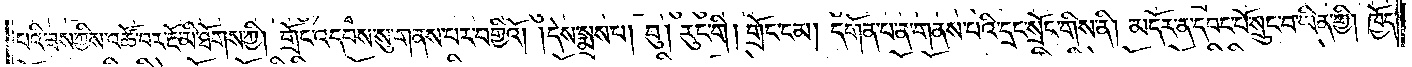པའི་ཟས་ཀྱིས་འཚོ་བར་རྔོ་མི་ཐོགས་ཀྱི། གྲོང་འདབས་སུ་གནས་པར་བགྱིའོ། །དེས་སྨྲས་པ། བུ། རུང་གི། གྲོང་ངམ། དགོན་པ་ན་གནས་པའི་དྲང་སྲོང་གིས་ནི། མདོར་ན་དབང་པོ་སྲུང་བ་ཡིན་གྱི། ཁྱོད་
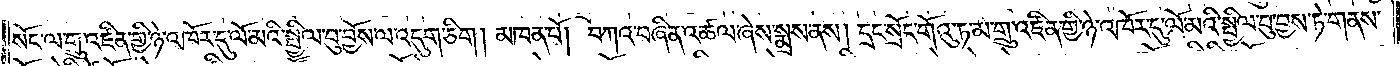སོང་ལ་གྲུ་འཛིན་གྱི་ཉེ་འཁོར་དུ་ལོ་མའི་སྤྱིལ་བུ་བྱོས་ལ་འདུག་ཅིག །མཁན་པོ། བཀའ་བཞིན་འཚལ་ཞེས་སྨྲས་ནས། དྲང་སྲོང་གོའུ་ཏ་མ་གྲུ་འཛིན་གྱི་ཉེ་འཁོར་དུ་ལོ་མའི་སྤྱིལ་བུ་བྱས་ཏེ་གནས་
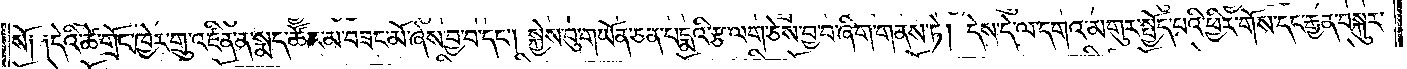སོ༑ ༑དེའི་ཚེ་གྲོང་ཁྱེར་གྲུ་འཛིན་ན་སྨད་ཚོང་མ་བཟང་མོ་ཞེས་བྱ་བ་དང༌། སྐྱེས་བུ་གཡོན་ཅན་པདྨའི་རྩ་ལག་ཅེས་བྱ་བ་ཞིག་གནས་ཏེ། དེས་དེ་ལ་དགའ་མགུར་སྤྱོད་པའི་ཕྱིར་གོས་དང་རྒྱན་བསྐུར་
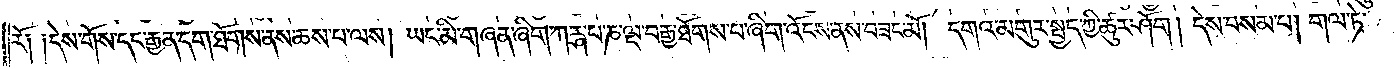རོ༑ ༑དེས་གོས་དང་རྒྱན་དག་ཐོགས་ནས་ཆས་པ་ལས། ཡང་མི་གཞན་ཞིག་ཀཪྴ་པ་ཎ་ལྔ་བརྒྱ་ཐོགས་པ་ཞིག་འོངས་ནས་བཟང་མོ། དགའ་མགུར་སྤྱད་ཀྱི་ཚུར་ཤོག །དེས་བསམ་པ། གལ་ཏེ་
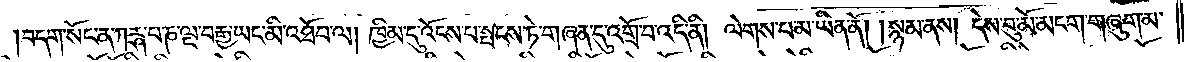བདག་སོང་ན་ཀཪྴ་པ་ཎ་ལྔ་བརྒྱ་ཡང་མི་འཐོབ་ལ། ཁྱིམ་དུ་འོངས་པ་སྤངས་ཏེ་གཞན་དུ་འགྲོ་བ་འདི་ནི། ལེགས་པ་མ་ཡིན་ནོ། །སྙམ་ནས། དེས་བུ་མོ་མངག་གཞུག་མ་
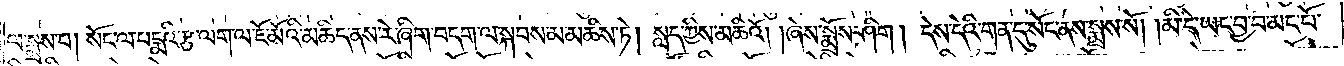ལ་སྨྲས་པ། སོང་ལ་པདྨའི་རྩ་ལག་ལ་ཇོ་མོའི་མཆིད་ནས་རེ་ཞིག་བདག་ལ་སྐབས་མ་མཆིས་ཏེ། སླད་ཀྱིས་མཆིའོ། །ཞེས་སྨྲོས་ཤིག །དེས་དེའི་གན་དུ་སོང་ནས་སྨྲས་སོ། །མི་དེ་ཡང་བྱ་བ་མང་པོ་
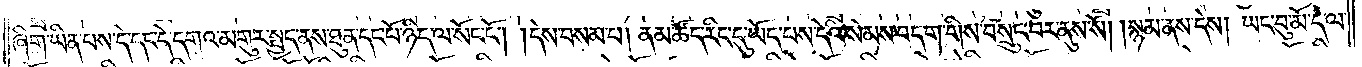ཞིག་ཡིན་པས་དེ་དང་དེ་དགའ་མགུར་སྤྱད་ནས་ཐུན་དང་པོ་ཉིད་ལ་སོང་ངོ༌། །དེས་བསམ་པ། ནམ་ཚོད་རིང་དུ་ཡོད་པས་དེའི་སེམས་བདག་གིས་བསྲུང་བར་ནུས་སོ། །སྙམ་ནས་དེས། ཡང་བུ་མོ་དེ་ལ་
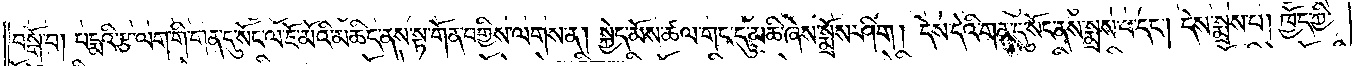བསྒོ་བ། པདྨའི་རྩ་ལག་གི་གན་དུ་སོང་ལ་ཇོ་མོའི་མཆིད་ནས་སྟ་གོན་བགྱིས་ལགས་ན། སྐྱེད་མོས་ཚལ་གང་དུ་མཆི་ཞེས་སྨྲོས་ཤིག །དེས་དེའི་གན་དུ་སོང་ནས་སྨྲས་པ་དང༌། དེས་སྨྲས་པ། ཁྱོད་ཀྱི་
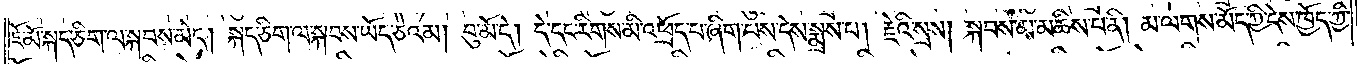ཇོ་མོ་སྐད་ཅིག་ལ་སྐབས་མེད། སྐད་ཅིག་ལ་སྐབས་ཡོད་ཅེའམ། བུ་མོ་དེ། དེ་དང་རིགས་མི་འཕྲོད་པ་ཞིག་པས་དེས་སྨྲས་པ། རྗེའི་སྲས། སྐབས་མ་མཆིས་པ་ནི། མ་ལགས་མོད་ཀྱི་དེས་ཁྱོད་ཀྱི་
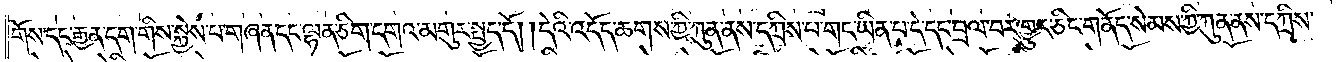གོས་དང་རྒྱན་དག་གིས་སྐྱེས་པ་གཞན་དང་ལྷན་ཅིག་དགའ་མགུར་སྤྱད་དོ། །དེའི་འདོད་ཆགས་ཀྱི་ཀུན་ནས་དཀྲིས་པ་གང་ཡིན་པ་དེ་དང་བྲལ་བར་གྱུར་ཅིང་གནོད་སེམས་ཀྱི་ཀུན་ནས་དཀྲིས་
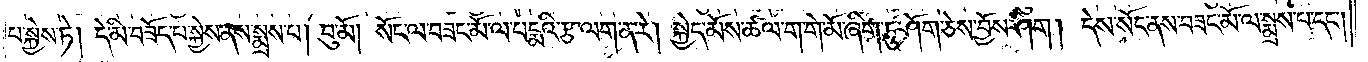པ་སྐྱེས་ཏེ། དེ་མི་བཟོད་པ་སྐྱེས་ནས་སྨྲས་པ། བུ་མོ། སོང་ལ་བཟང་མོ་ལ་པདྨའི་རྩ་ལག་ན་རེ། སྐྱེད་མོས་ཚལ་ག་གེ་མོ་ཞིག་ཏུ་ཤོག་ཅེས་བྱོས་ཤིག། དེས་སོང་ནས་བཟང་མོ་ལ་སྨྲས་པ་དང༌།
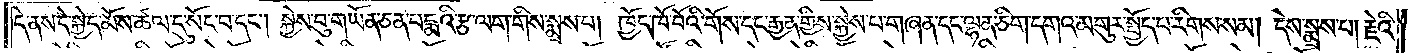དེ་ནས་དེ་སྐྱེད་མོས་ཚལ་དུ་སོང་བ་དང༌། སྐྱེས་བུ་གཡོན་ཅན་པདྨའི་རྩ་ལག་གིས་སྨྲས་པ། ཁྱོད་ཁོ་བོའི་གོས་དང་རྒྱན་གྱིས་སྐྱེས་པ་གཞན་དང་ལྷན་ཅིག་དགའ་མགུར་སྤྱོད་པ་རིགས་སམ། དེས་སྨྲས་པ། རྗེའི་
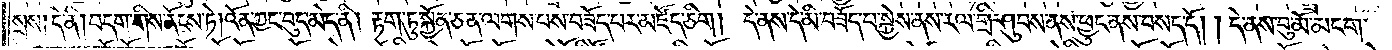སྲས། དེ་ནི། བདག་གིས་ནོངས་ཏེ། འོན་ཀྱང་བུད་མེད་ནི། རྟག་ཏུ་སྐྱོན་ཅན་ལགས་པས་བཟོད་པར་མཛོད་ཅིག། དེ་ནས་དེ་མི་བཟོད་པ་སྐྱེས་ནས་རལ་གྲི་ཤུབས་ནས་ཕྱུང་ནས་བསད་དོ། །དེ་ནས་བུ་མོ་མངག་
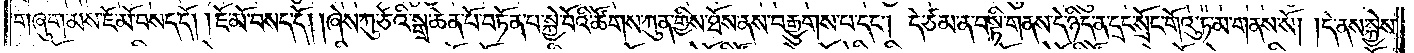གཞུག་མས་ཇོ་མོ་བསད་དོ། །ཇོ་མོ་བསད་དོ། །ཞེས་ཀུ་ཅོའི་སྒྲ་ཆེན་པོ་བཏོན་པ་སྐྱེ་བོའི་ཚོགས་ཀུན་གྱིས་ཐོས་ནས་བརྒྱུགས་པ་དང༌། དེ་ཙམ་ན་བསྟི་གནས་དེ་ཉིད་ན་དྲང་སྲོང་གོའུ་ཏ་མ་གནས་སོ། །དེ་ནས་སྐྱེས་
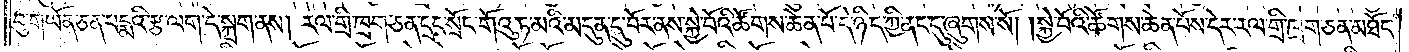བུ་གཡོན་ཅན་པདྨའི་རྩ་ལག་དེ་སྐྲག་ནས། རལ་གྲི་ཁྲག་ཅན་དྲང་སྲོང་གོའུ་ཏ་མའི་མདུན་དུ་བོར་ནས་སྐྱེ་བོའི་ཚོགས་ཆེན་པོ་དེ་ཉིད་ཀྱི་ནང་དུ་ཞུགས་སོ། །སྐྱེ་བོའི་ཚོགས་ཆེན་པོས་དེར་རལ་གྲི་ཁྲག་ཅན་མཐོང་
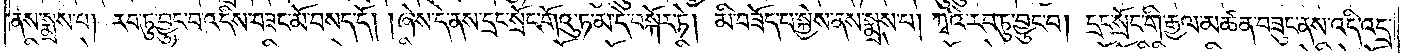ནས་སྨྲས་པ། རབ་ཏུ་བྱུང་བ་འདིས་བཟང་མོ་བསད་དོ། །ཞེས་དེ་ནས་དྲང་སྲོང་གོའུ་ཏ་མ་དེ་བསྐོར་ཏེ། མི་བཟོད་པ་སྐྱེས་ནས་སྨྲས་པ། ཀྭའི་རབ་ཏུ་བྱུང་བ། དྲང་སྲོང་གི་རྒྱལ་མཚན་བཟུང་ནས་འདི་འདྲ་
